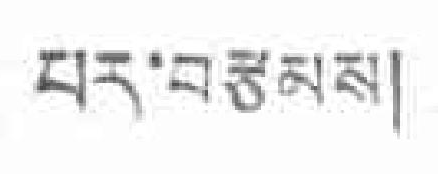པར་བརྩམས།
